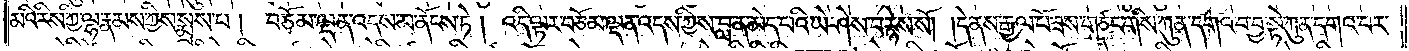མའི་རིས་ཀྱི་ལྷ་རྣམས་ཀྱིས་སྨྲས་པ། བཅོམ་ལྡན་འདས་མ་ནོངས་ཏེ། འདི་ལྟར་བཅོམ་ལྡན་འདས་ཀྱིས་བླ་ན་མེད་པའི་ཡེ་ཤེས་བརྙེས་སོ། །དེ་ནས་རྒྱལ་པོ་ཟས་གཙང་གིས་ཀུན་དགའ་བ་བྱ་སྟེ་ཀུན་དགའ་བར་
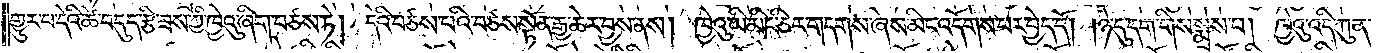གྱུར་པ་དེའི་ཚེ་བདུད་རྩི་ཟས་ཀྱི་ཁྱེའུ་ཞིག་བཙས་ཏེ། དེའི་བཙས་པའི་བཙས་སྟོན་རྒྱ་ཆེར་བྱས་ནས། ཁྱེའུ་ཡི་མིང་ཅིར་གདགས་ཞེས་མིང་འདོགས་པར་བྱེད་དོ། །ཉེ་དུ་དག་གིས་སྨྲས་པ། ཁྱེའུ་འདི་ཀུན་
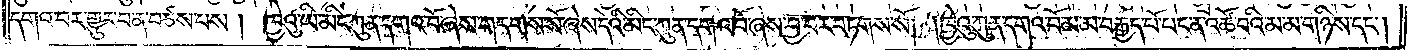དགའ་བར་གྱུར་བ་ན་བཙས་པས། ཁྱེའུ་ཡི་མིང་ཀུན་དགའ་བོ་ཞེས་གདགས་སོ་ཞེས་དེའི་མིང་ཀུན་དགའ་བོ་ཞེས་བྱ་བར་བཏགས་སོ། །ཁྱེའུ་ཀུན་དགའ་བོ་མ་མ་བརྒྱད་པོ་པང་ན་འཚོ་བའི་མ་མ་གཉིས་དང༌།
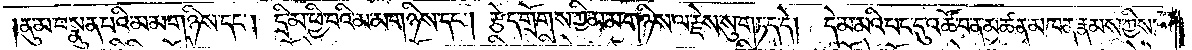ནུ་མ་བསྣུན་པའི་མ་མ་གཉིས་དང༌། དྲི་མ་ཕྱི་བའི་མ་མ་གཉིས་དང༌། རྩེད་གྲོགས་ཀྱི་མ་མ་གཉིས་ལ་རྗེས་སུ་གཏད་དེ། དེ་མ་མའི་པང་དུ་འཚོ་བ་ན་མཚན་མཁན་རྣམས་ཀྱིས་
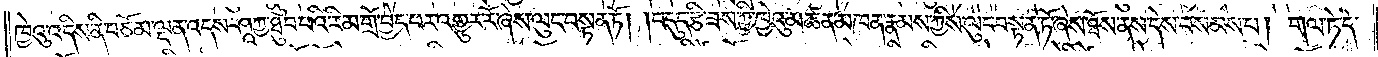ཁྱེའུ་འདིས་ནི་བཅོམ་ལྡན་འདས་ཤཱཀྱ་ཐུབ་པའི་རིམ་གྲོ་བྱེད་པར་འགྱུར་རོ་ཞེས་ལུང་བསྟན་ཏོ། །བདུད་རྩི་ཟས་ཀྱི་ཁྱེའུ་མཚན་མཁན་རྣམས་ཀྱིས་ལུང་བསྟན་ཏོ་ཞེས་ཐོས་ནས་དེས་བསམས་པ། གལ་ཏེ་དེ་
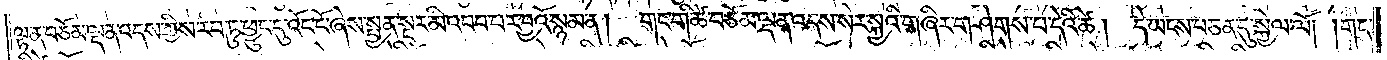ལྟ་ན་བཅོམ་ལྡན་འདས་ཀྱིས་རབ་ཏུ་ཕྱུང་དུ་འོང་ངོ་ཞེས་སྤྱན་སྔར་མི་འབབ་པར་བྱའོ་སྙམ་ན། གང་གི་ཚེ་བཅོམ་ལྡན་འདས་སེར་སྐྱའི་གཞིར་གཤེགས་པ་དེའི་ཚེ། དེ་ཡངས་པ་ཅན་དུ་སྐྱེལ་ལོ། །གང་
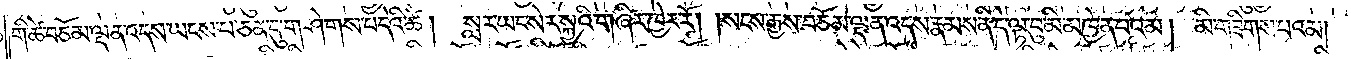གི་ཚེ་བཅོམ་ལྡན་འདས་ཡངས་པ་ཅན་དུ་གཤེགས་པ་དེའི་ཚེ། སླར་ཡང་སེར་སྐྱའི་གཞིར་ཁྱེར་རོ། །སངས་རྒྱས་བཅོམ་ལྡན་འདས་རྣམས་ནི་དེ་ལྟ་བུ་མི་མཁྱེན་པའམ། མི་གཟིགས་པའམ།
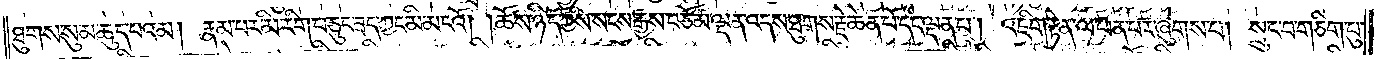ཐུགས་སུ་མ་ཆུད་པའམ། རྣམ་པར་མི་རིག་པ་ཅུང་ཟད་ཀྱང་མི་མངའོ། །ཆོས་ཉིད་ཀྱིས་སངས་རྒྱས་བཅོམ་ལྡན་འདས་ཐུགས་རྗེ་ཆེན་པོ་དང་ལྡན་པ། འཇིག་རྟེན་ལ་ཕན་པར་ཞུགས་པ། སྲུང་བ་གཅིག་པུ་
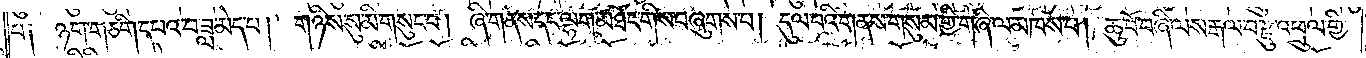པ། ཉག་གཅིག་དཔའ་བ་ཟླ་མེད་པ། གཉིས་སུ་མི་གསུང་བ། ཞི་གནས་དང་ལྷག་མཐོང་གིས་བཞུགས་པ། དུལ་བའི་གནས་གསུམ་གྱི་གཞི་ལ་མཁས་པ། ཆུ་བོ་བཞི་ལས་རྒལ་བ་རྫུ་འཕྲུལ་གྱི་
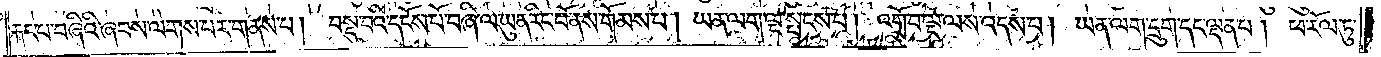རྐང་པ་བཞིའི་ཞབས་ལེགས་པར་གནས་པ། བསྡུ་པའི་དངོས་པོ་བཞི་ལ་ཡུན་རིང་པོ་ནས་གོམས་པ། ཡན་ལག་ལྔ་སྤངས་པ། འགྲོ་བ་ལྔ་ལས་འདས་པ། ཡན་ལག་དྲུག་དང་ལྡན་པ། ཕ་རོལ་ཏུ་
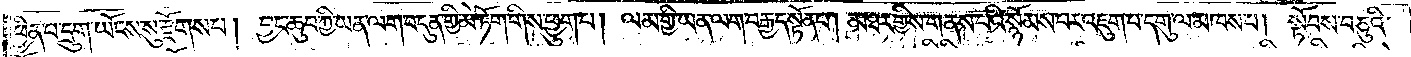ཕྱིན་པ་དྲུག་ཡོངས་སུ་རྫོགས་པ། བྱང་ཆུབ་ཀྱི་ཡན་ལག་བདུན་གྱི་མེ་ཏོག་གིས་ཕྱུག་པ། ལམ་གྱི་ཡན་ལག་བརྒྱད་སྟོན་པ། མཐར་གྱིས་གནས་པའི་སྙོམས་པར་འཇུག་པ་དགུ་ལ་མཁས་པ། སྟོབས་བཅུའི་
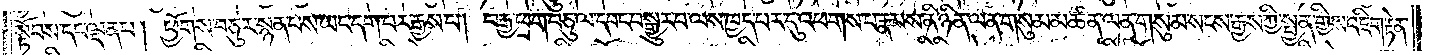སྟོབས་དང་ལྡན་པ། ཕྱོགས་བཅུར་སྙན་པས་ཡང་དག་པར་རྒྱས་པ། བརྒྱ་ཕྲག་བཅུ་ལ་དབང་བསྒྱུར་ལས་ཁྱད་པར་དུ་འཕགས་པ་རྣམས་ནི་ཉིན་ལན་གསུམ་མཚན་ལན་གསུམ་སངས་རྒྱས་ཀྱི་སྤྱན་གྱིས་འཇིག་རྟེན་
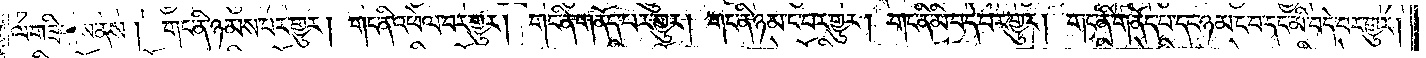ལ་གཟིགས་ནས། གང་ནི་ཉམས་པར་གྱུར། གང་ནི་འཕེལ་བར་གྱུར། གང་ནི་གནོད་པར་གྱུར། གང་ནི་ཉམ་ང་བར་གྱུར། གང་ནི་མི་བདེ་བར་གྱུར། གང་ནི་གནོད་པ་དང་ཉམ་ང་བ་དང་མི་བདེ་བར་གྱུར།
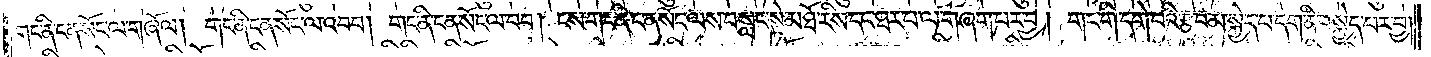གང་ནི་ངན་སོང་ལ་གཞོལ། གང་ནི་ངན་སོང་ལ་འབབ། གང་ནི་ངན་སོང་ལ་བབ། ངས་གང་ནི་ངན་སོང་ལས་བསླང་སྟེ་མཐོ་རིས་དང་ཐར་པ་ལ་གཞག་པར་བྱ། གང་གི་དགེ་བའི་རྩ་བ་མ་སྐྱེད་པ་དག་ནི་བསྐྱེད་པར་བྱ་
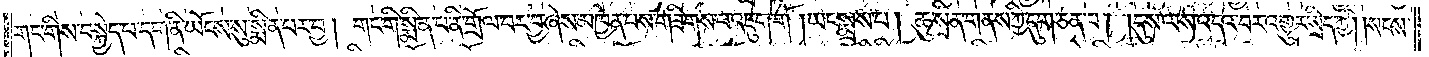གང་གིས་བསྐྱེད་པ་དག་ནི་ཡོངས་སུ་སྨིན་པར་བྱ། །གང་གི་སྨིན་པ་ནི་གྲོལ་བར་བྱ་ཞེས་མཁྱེན་པས་གཟིགས་པ་འཇུག་ཏོ་།ཡང་སྨྲས་པ། ཆུ་སྲིན་གནས་ཀྱི་དུག་ཅན་པ། །དུས་ལས་འདའ་བར་འགྱུར་སྲིད་ཀྱི། །སངས་
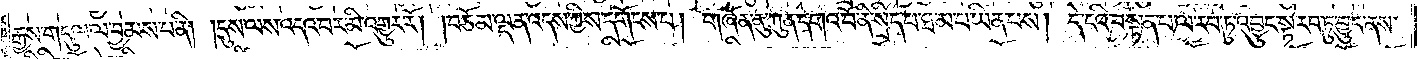རྒྱས་གདུལ་ལ་བྱམས་པ་ནི། །དུས་ལས་འདའ་བར་མི་འགྱུར་རོ། །བཅོམ་ལྡན་འདས་ཀྱིས་དགོངས་པ། གཞོན་ནུ་ཀུན་དགའ་བོ་ནི་སྲིད་པ་ཐ་མ་པ་ཡིན་པས། དེའི་ངའི་བསྟན་པ་ལ་རབ་ཏུ་འབྱུང་སྟེ་རབ་ཏུ་བྱུང་ནས་
